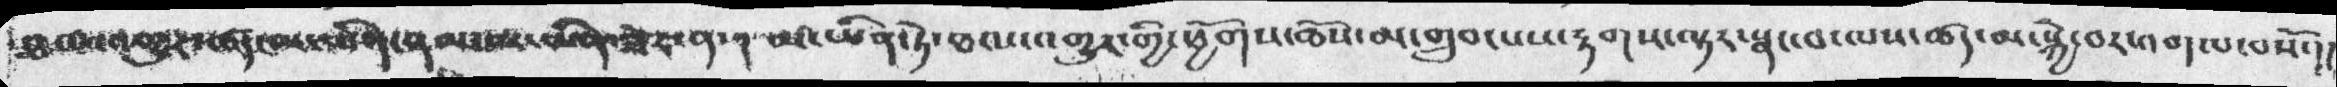ཐལ་འགྱུར་ཚད་མ་ཡིན་ནམ་མ་ཡིན་ཟེར་ན་།  མ་ཡིན་ཏེ་ཐལ་འགྱུར་གྱི་ཕྱོགས་ཆོས་མ་གྲུབ་པས་རྟགས་ལྟར་སྣང་བ་ལས་ཚད་མ་སྐྱེ་བར་འགའ་བསོ་།།
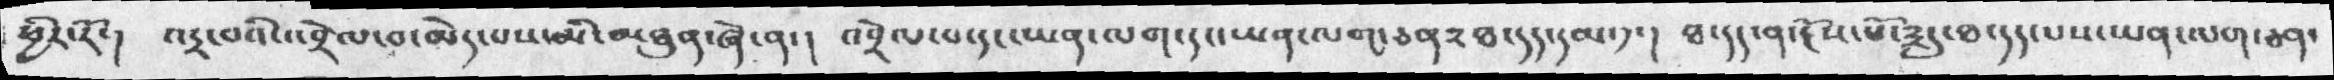ཕྱིར་རོ་།  འདྲ་བའི་འབྲེལ་བ་མེད་པས་མི་མཐུན་ཞེ་ན་།  འབྲེལ་བ་དང་ཡན་ལག་དང་ཡན་ལག་ཅན༢ཐ་དད་དམ་༡་།  ཐ་དད་ན་རྔོས་པོ་༣དུ་ཐ་དད་པས་ཡན་ལག་ཅན་
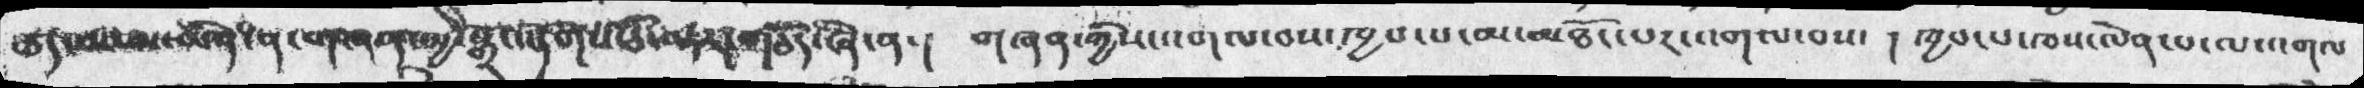ཚད་མ་མ་ཡིན་གཞན་གྱི་སྒྲ་འདོགས་ཅི་ལྟར་གཅོད་ཞེ་།  གཞན་གྱིས་འགལ་བས་ཁྱབ་པ་མ་མཐོང་པར་འགལ་བས་།   ཁྱབ་པ་ཁས་ལེན་པ་ལ་འགལ
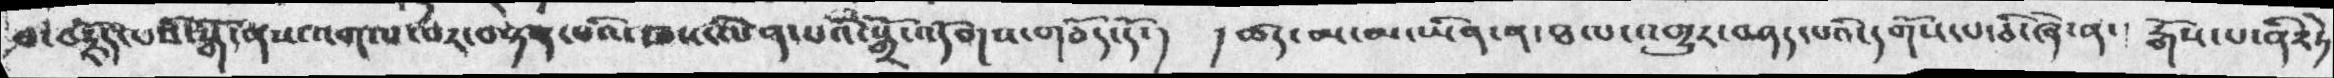བ་བརྗོད་པའི་སྒོ་ནས་འགལ་པར་བསྟན་པའི་ཁས་ལེན་པའི་སྒྲོ་འདོགས་གཅོད་དོ་།  །ཚད་མ་མ་ཡིན་ན་ཐལ་འགྱུར་བཤད་པའི་དགོས་པ་ཅི་ཞེ་ན་ རྒོས་པ་ནི་༢ཏེ
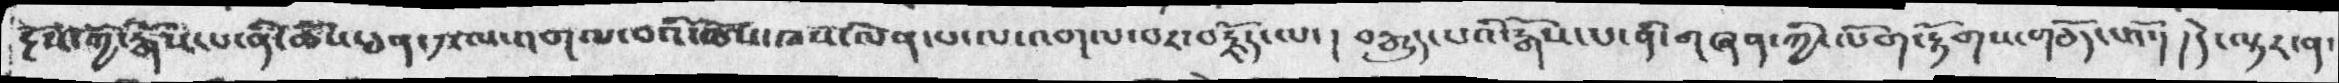རྔོས་ཀྱི་རྒོས་པ་ནི་ཆོས་ཅན་༡་ལ་འགལ་བའི་ཆོས་ཁས་ལེན་ལ་འགལ་བར་བརྗོད་ལ་། བརྒྱུད་པའི་རྒོས་པ་ནི་གཞན་ཀྱི་ལོག་རྟོགས་གཅོད་པའོ་། །དེ་ལྟར་ན་
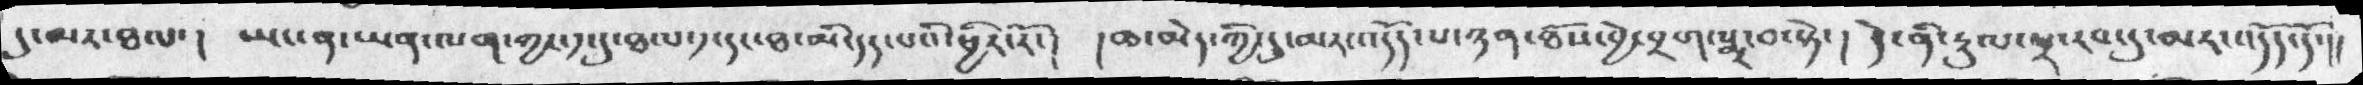དུ་མར་ཐལ་།  ཡང་ན་ཡན་ལག་ཀྱང་༡་དུ་ཐ་མི་དད་པའི་ཕྱིར་རོ་། །ཆ་མེད་ཀྱི་དུ་མར་འདོད་པ་ཉན་ཐོས་བྱེ་བྲག་སྨྲ་བ་སྟེ་། དེ་ནི་རྡུལ་ཕྲ་རབ་དུ་མར་འདོད་དོ་།།
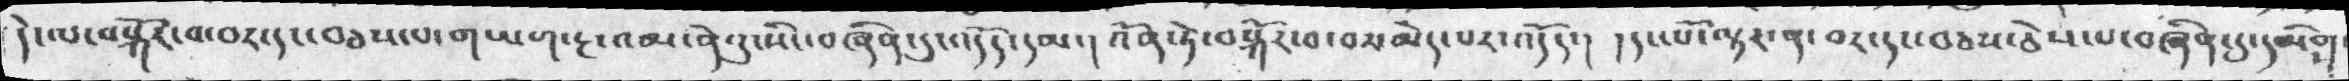དེ་ལ་བསྐོར་བ་བར་དང་བཅས་པ་གཡག་རྔ་འམ་ནེའུ་སིང་བཞིན་དུ་འདོད་དམ་། འོན་ཏེ་བསྐོར་བ་བར་མེད་པར་འདོད་། །དང་པོ་ལྟར་ན་བར་དང་བཅས་ཅེས་པ་བཞིན་དུ་དམིག
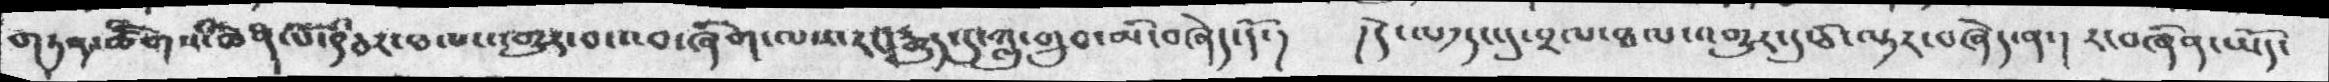གཏན་ཚིགས་ཆེན་པོ་༩་ཅར་ཐལ་འགྱུར་བ་འབ་ཞིགག་ལས་རང་རྒྱུད་དུ་ཀླུ་གྲུབ་མི་བཞེད་དོ་།   །དེ་ལ་༡དང་དུ་བྲལ་ཐལ་འགྱུར་དུ་ཅི་ལྟར་བཞེད་ན་།   རང་བཞིན་ཡོད་
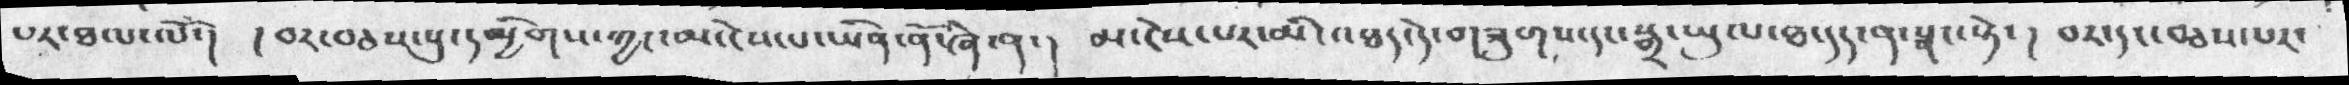པར་ཐལ་ལོ་།  ད བར་བཅས་སུ་དམྱིགས་ཀྱང་མམ་ངེས་པ་ཡིན་ནོ་ཞེ་ན་།  མ་ངེས་པར་མི་འཐད་དེ་གཟུགས་དང་སྒྲ་ཡུལ་ཐ་དད་ན་སྣང་སྟེ་།  བར་དང་བཅས་པར་
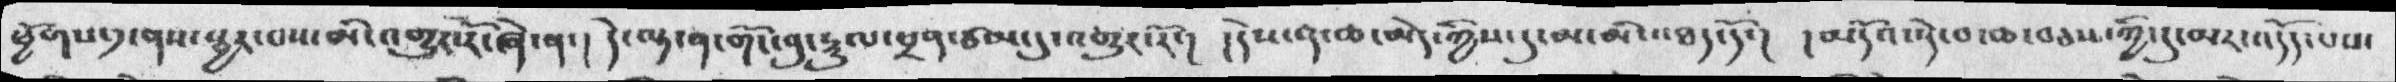ཕྱོགས་༡་ནས་སྦྱར་བས་མི་འགྱུར་རོ་ཞེ་ན་། དེ་ལྟ་ན་གོང་བུ་རྡུལ་ཕྲན་ཙམ་དུ་འགྱུར་རོ་།  །དེས་ན་ཆ་མེད་ཀྱིས་དུ་མ་མི་འཐད་དོ་། །མདོའ་སྡེ་བ་ཆ་བཅས་ཀྱི་དུ་མར་འདོད་པས་
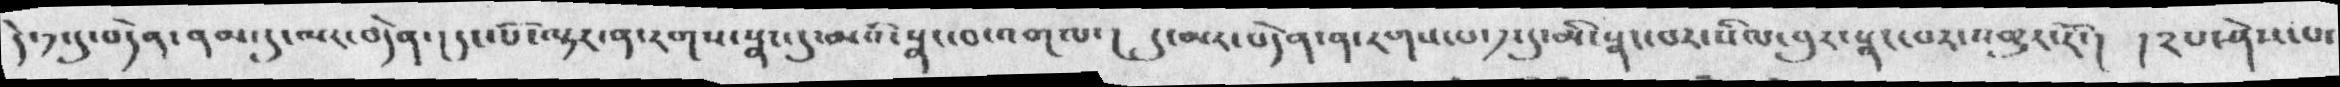དེ་༡་དུ་བདེན་ནམ་དུ་ལང་བདེན་།དང་པོ་ལྟར་ན་དགས་སྣང་དུ་མའི་སྣང་བ་འགལ་། དུ་མར་བདེན་ན་དགས་པ་༡་དདུ་མི་སྣང་བར་སིལ་བུར་སྣང་བར་འགྱུར་རོ་།  །༢་པ་ཤེས་པ་
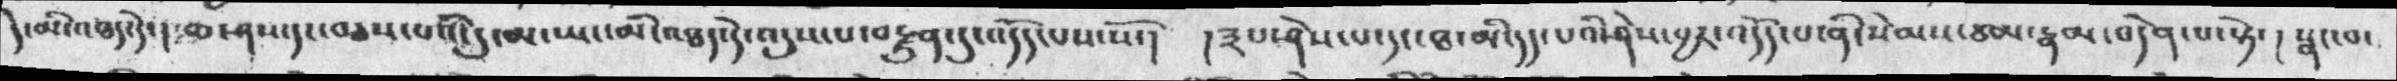དེ་མི་འཐད་དེ་། ཆ་ཤས་དང་མས་པའི་དུ་མ་ཡང་མི་འཐད་དེ་འདུས་པ་བརྫུན་དུ་འདོད་པས་སོ་།  །༣པ་ཤེས་པ་དང་ཐ་མི་དད་པའི་ཤེས་བྱར་འདོད་པ་ནི་སེམས་ཙམ་རྣམ་བདེན་པ་སྟེ་།  སྣང་བ་
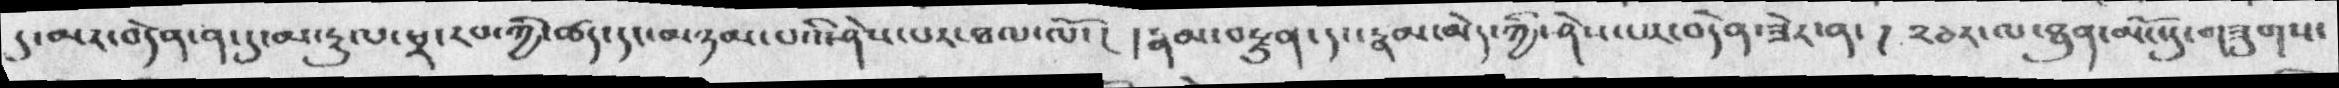དུ་མར་བདེན་ན་དུ་མ་རྡུལ་ཕྲ་རབ་ཀྱི་ཚད་དང་མཉམ་པའི་ཤེས་པར་ཐལ་ལོ་།  །རྣམ་བརྫུན་དང་རྣམ་མེད་ཀྱི་ཤེས་པར་བདེན་ཟེར་ན་ ། ༢ཅར་ལ་ཐུན་མོངསུ་གཟུགས་
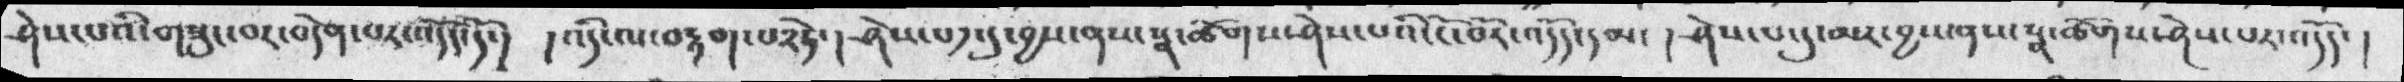ཤེས་པའི་གཟུང་བར་བདེན་པར་འདོད་དོ་།  ། འདི་ལ་བརྟག་པ༢ཏེ་།  ཤེས་པ༡་དུ་བྱས་ནས་སྣ་ཚོགས་ཤེས་པའི་ངོ་བོར་འདོད་དམ་ ། ཤེས་པ་དུ་མར་བྱས་ནས་སྣ་ཚོགས་ཤེས་པར་འདོད་ །
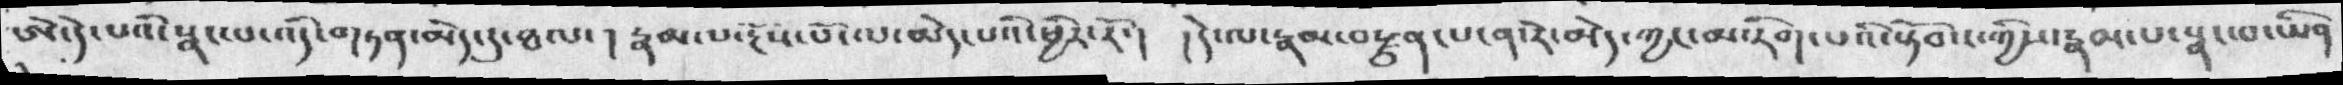ཨེ་དེ་པའི་སྣང་པ་འདི་གཏན་མེད་དུ་ཐལ་།  རྣམ་པར་རྔོས་པོ་ལ་མེད་པའི་ཕྱིར་རོ་།  ། དེ་ལ་རྣམ་བརྫུན་པ་ན་རེ་མེད་ཀྱང་མ་རིག་པའི་སྟོབས་ཀྱིས་རྣམ་པ་སྣང་བ་ཡིན
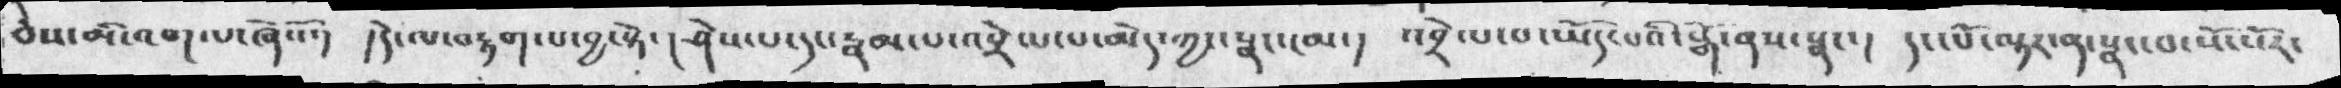ཅེས་མི་འགལ་ཞེསོ་།  །དེ་ལ་བརྟག་པ་བྱ་སྟེ་། ཤེས་པ་དང་རྣམ་པ་འབྲེལ་པ་མེད་ཀྱང་སྣང་ངམ་།  འབྲེལ་བ་ཡོད་པའི་སྒོ་ནས་སྣང་།  དང་པོ་ལྟར་ན་སྣང་བ་སོ་སོར་
